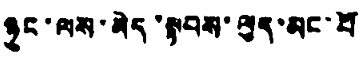ཉུང་ལས་མེད་སྟབས་ལུད་མང་པོ
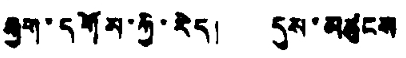རྒྱག་དགོས་ཀྱི་རེད། དུས་མཚུངས
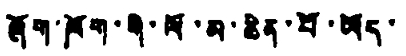ཞོག་ཁོག་གི་ལོ་མ་ཆེན་པོ་ཡོད་
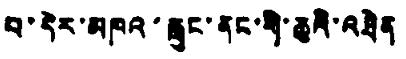པ་དེར་མཁའ་རླུང་ནང་གི་ཆུའི་འཐེན
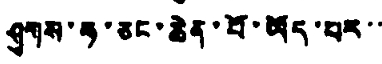ཤུགས་ཧ་ཅང་ཆེན་པོ་ཡོད་པར་་་
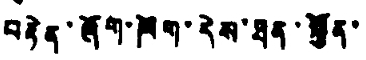བརྟེན་ཞོག་ཁོག་དེས་ཐན་སྐྱོན་་་་
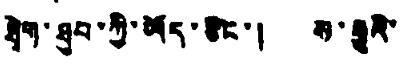ཐེག་ཐུབ་ཀྱི་ཡོད་ཅིང་། ས་རྒྱུའི་
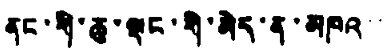ནང་གི་ཆུ་ལྡང་གི་མེད་ན་མཁའ་་་
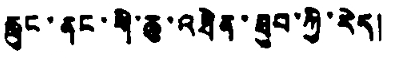རླུང་ནང་གི་ཆུ་འཐེན་ཐུབ་ཀྱི་རེད།
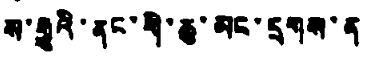ས་རྒྱུའི་ནང་གི་ཆུ་མང་དྲགས་ན་
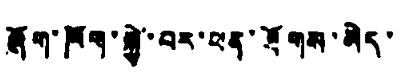ཞོག་ཁག་སྐྱེ་བར་ཕན་ཐོགས་མེད་
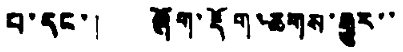པ་དང་། ཞོག་རྡོག་ཆགས་རྒྱུར་་
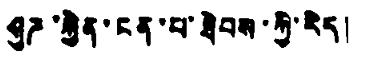ཤུཌ་རྐྱེན་ངན་པ་ཐེབས་ཀྱི་རེད།
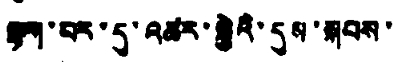ལྷག་པར་དུ་འཆར་སྐྱེའི་དུས་སྐབས་
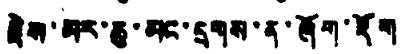རྗེས་མར་ཆུ་མང་དྲགས་ན་ཞོག་རྡོག
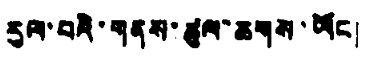རུལ་བའི་གནས་ཚུལ་ཆགས་ཡོང།
